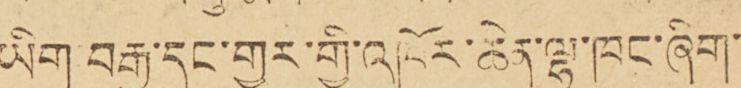ཡིག བརྒྱ་དུང་གྱར་གྱི་འཁོར་ཆེན་ལྷ་ཁང་ཞིག་
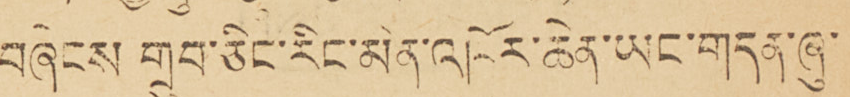བཞེངས གྲུབ་ཅིང་རིང་མིན་འཁོར་ཆེན་ཡང་གདན་ཞུ་
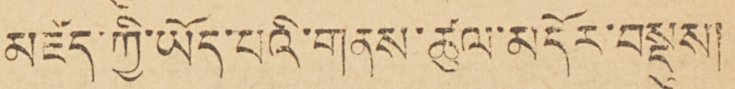མཛད་ཀྱི་ཡོད་པའི་གནས་ཚུལ་མདོར་བསྡུས།།
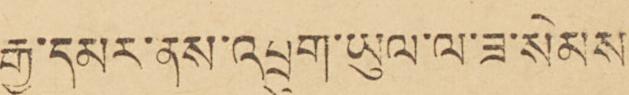རྒྱ་དམར་ནས་འབྲུག་ཡུལ་ལ་ཟ་སེམས་
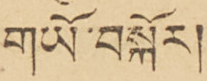གཡོ་བསྐོར།
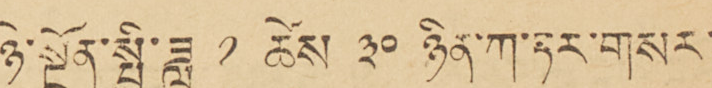ཉེ་སྔོན་སྤྱི་ཟླ ༡ ཚེས་ ༣༠ ཉིན་ཀ་ཏར་གསར་
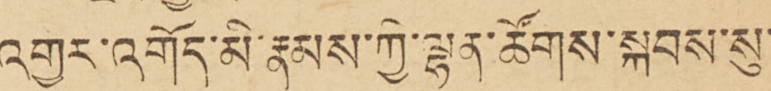འགྱུར་འགོད་མི་རྣམས་ཀྱི་ལྷན་ཚོགས་སྐབས་སུ་
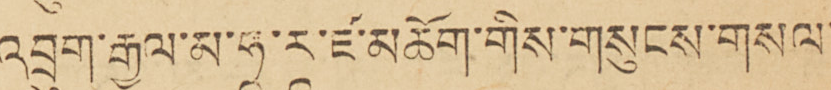འབྲུག་རྒྱལ་མ་ཧཱ་རཱ་ཛ་མཆོག་གིས་གསུངས་གསལ་
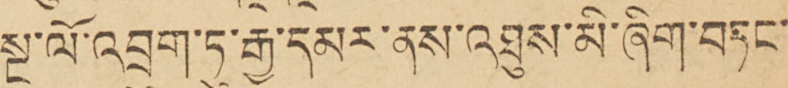སྔ་ལོ་འབྲུག་ཏུ་རྒྱ་དམར་ནས་འཐུས་མི་ཞིག་བཏང་
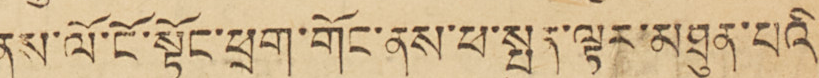ནས་ལོ་ངོ་སྟོང་ཕྲག་གོང་ནས་སྤུན་ལྟར་མཐུན་པའི་
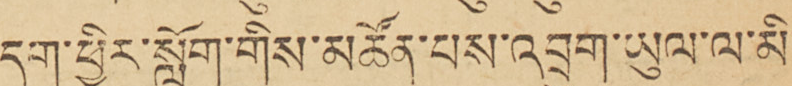དག་ཕྱིར་སློག་གིས་མཚོན་པས་འབྲུག་ཡུལ་ལ་མི་
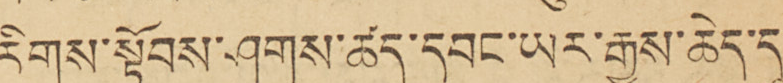རིགས་སྟོབས་ཤུགས་ཚད་དབང་ཡར་རྒྱས་ཆེད་དུ་
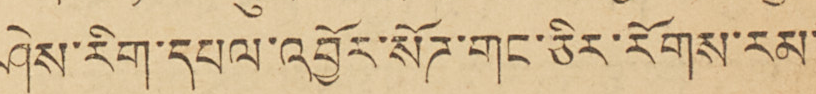ཤེས་རིག་དཔལ་འབྱོར་སོཊ་གང་ཅིར་རོགས་རམ་
